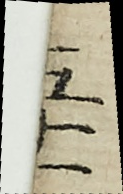五十一
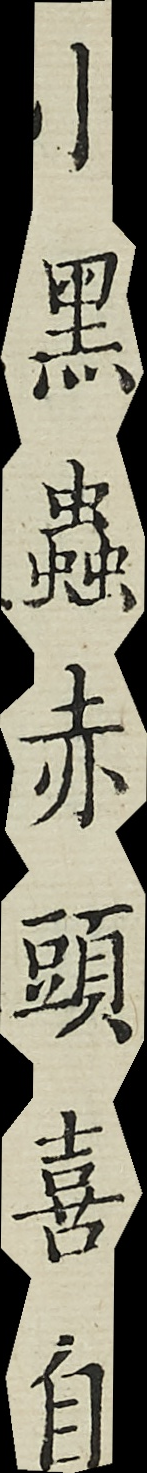小黑蟲赤頭喜自
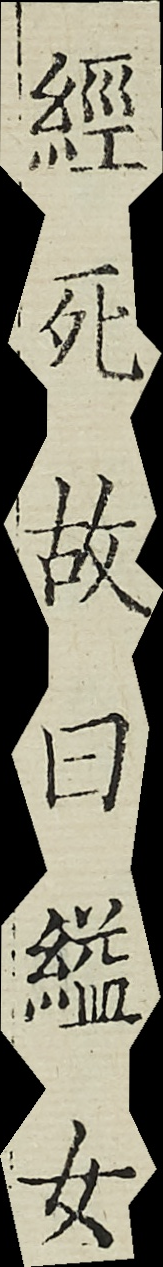經死故曰縊女
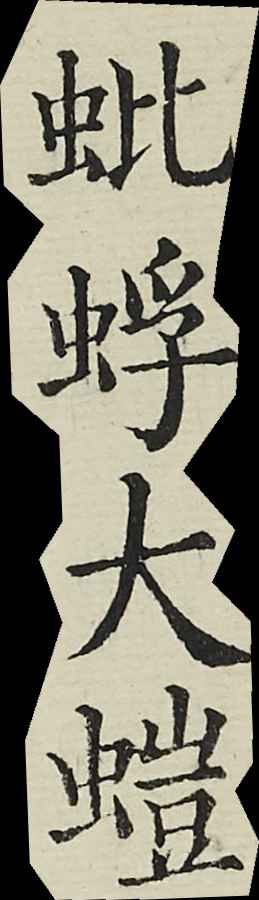蚍蜉大螘
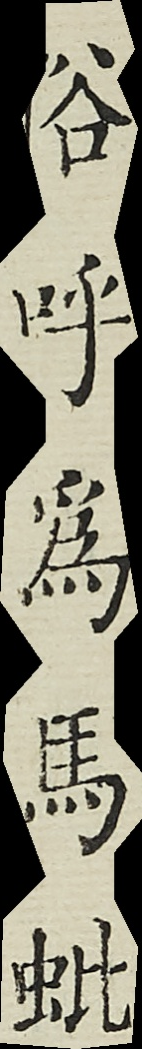俗呼為馬蚍
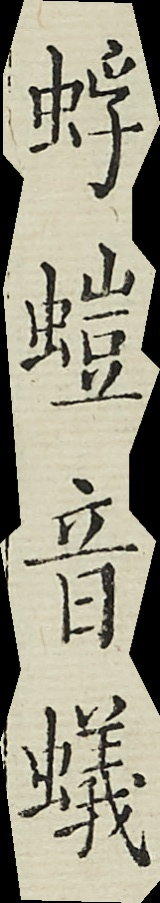蜉螘音蟻
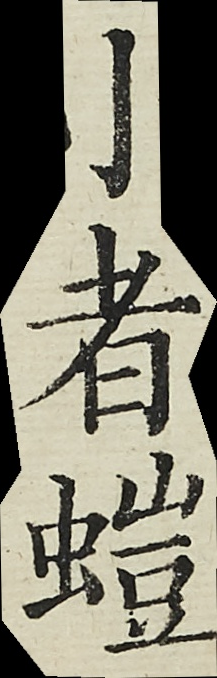小者螘
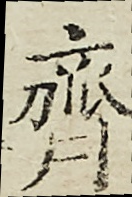齊
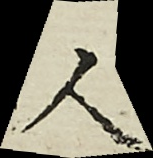人
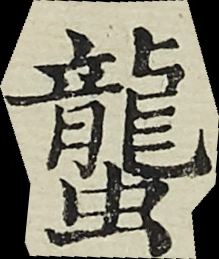蠪
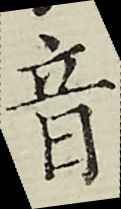音
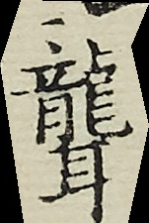聾
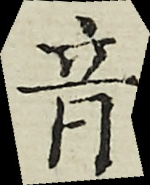音
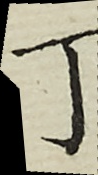丁
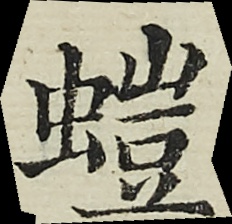螘
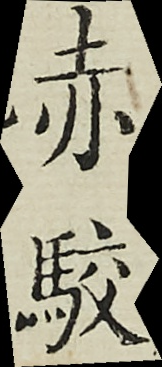赤駮
